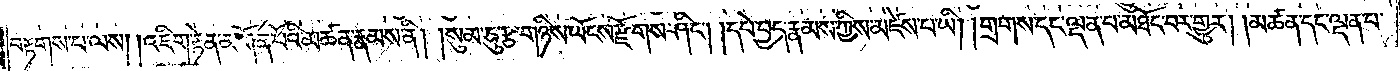བརྟགས་པ་ལས། །འཇིག་རྟེན་མགོན་པོའི་མཚན་རྣམས་ནི། །སུམ་ཅུ་རྩ་གཉིས་ཡོངས་རྫོགས་ཤིང༌། །དཔེ་བྱད་རྣམས་ཀྱིས་མཛེས་པ་ཡི། །གྲགས་དང་ལྡན་པ་མཐོང་བར་གྱུར། །མཚན་དང་ལྡན་པ་
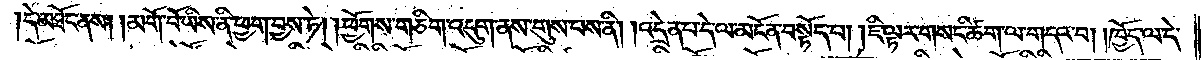།དེ་མཐོང་ནས། །མགོ་བོ་ཡིས་ནི་ཕྱག་བྱས་ཏེ། །ཕྱོགས་གཅིག་འདུག་ནས་གུས་པས་ནི། །འདྲེན་པ་དེ་ལ་མངོན་བསྟོད་པ། །ཇི་ལྟར་གསང་ཚིག་ལ་གདའ་བ། །ཁྱོད་ལ་དེ་
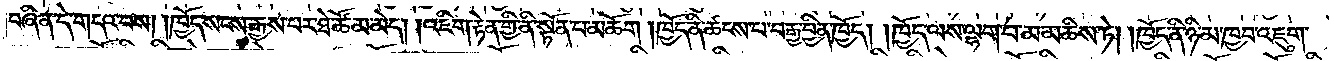བཞིན་དེ་གདའ་བས། །ཁྱོད་སངས་རྒྱས་པར་ཐེ་ཚོམ་མེད། །འཇིག་རྟེན་གྱི་ནི་སྟོན་པ་མཆོག །ཁྱོད་ནི་ཚངས་པ་བརྒྱ་བྱིན་ཁྱོད། །ཁྱོད་ལས་ལྷག་པ་མ་མཆིས་ཏེ། །ཁྱོད་ནི་ཉི་མ་ཁྱབ་འཇུག་
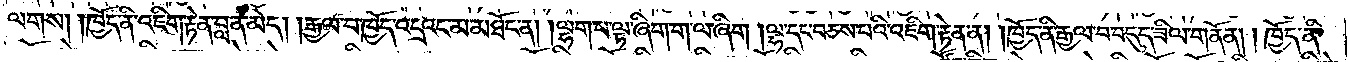ལགས། །ཁྱོད་ནི་འཇིག་རྟེན་བླ་ན་མེད། །རྒྱལ་བ་ཁྱོད་འདྲའང་མ་མཐོང་ན། །ལྷག་པ་ལྟ་ཞིག་ག་ལ་ཞིག །ལྷ་དང་བཅས་པའི་འཇིག་རྟེན་ན། །ཁྱོད་ནི་རྒྱལ་བ་བདུད་ཟིལ་གནོན། །ཁྱོད་ནི་
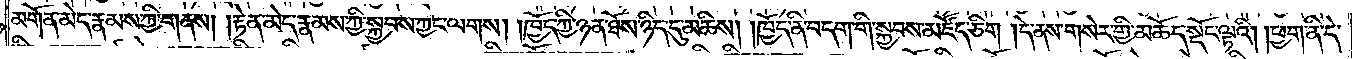མགོན་མེད་རྣམས་ཀྱི་གནས། །རྟེན་མེད་རྣམས་ཀྱི་སྐྱབས་ཀྱང་ལགས། །ཁྱོད་ཀྱི་ཉན་ཐོས་ཉིད་དུ་མཆིས། །ཁྱོད་ནི་བདག་གི་སྐྱབས་མཛོད་ཅིག །དེ་ནས་གསེར་གྱི་མཆོད་སྡོང་ལྟའི། །ཕྱག་ནི་དེ་
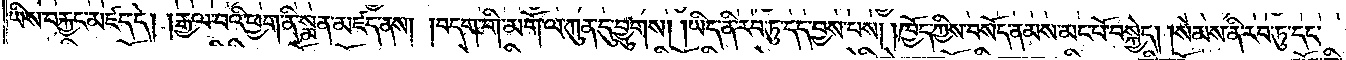ཡིས་བརྐྱང་མཛད་དེ། །རྒྱལ་བའི་ཕྱག་ནི་སྨན་མཛད་ནས། །བདག་གི་མགོ་ལ་ཀུན་དུ་བྱུགས། །ཡིད་ནི་རབ་ཏུ་དད་བྱས་པས། །ཁྱོད་ཀྱིས་བསོད་ནམས་མང་པོ་བསྐྱེད། །སེམས་ནི་རབ་ཏུ་དང་
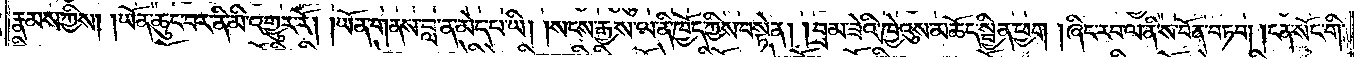རྣམས་ཀྱིས། །ཡོན་ཆུང་བར་ནི་མི་འགྱུར་རོ། །ཡོན་གནས་བླ་ན་མེད་པ་ཡི། །སངས་རྒྱས་ལ་ནི་ཁྱོད་ཀྱིས་བསྟེན། །བྲམ་ཟེའི་ཁྱེའུས་མཆོད་སྦྱིན་ཕྱག །ཞིང་རབ་ལ་ནི་ས་བོན་བཏབ། །ངན་སོང་གི་
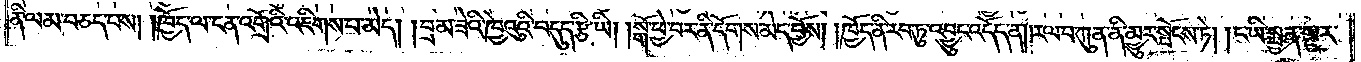ནི་ལམ་བཅད་པས། །ཁྱོད་ལ་ངན་འགྲོའི་འཇིགས་པ་མེད། །བྲམ་ཟེའི་ཁྱེའུའི་བདུད་རྩི་ཡི། །སྒོ་ཕྱེ་བར་ནི་དོགས་མེད་བྱོས། །ཁྱོད་ནི་རབ་ཏུ་འབྱུང་འདོད་ན། །རལ་པ་ཀུན་ནི་མྱུར་སྤོངས་ཏེ། །ང་ཡི་སྤྱན་སྔར་
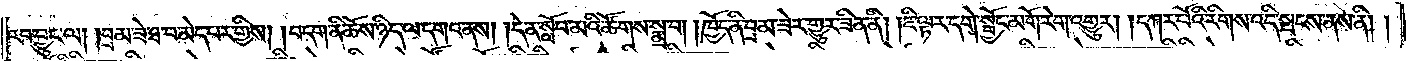རབ་བྱུང་ལ། །བྲམ་ཟེ་ཐ་བ་མེད་པར་གྱིས། །བདག་ནི་ཆོས་ཉིད་ལ་དགའ་ནས། །དེ་ན་སློབ་མའི་ཚོགས་སྨྲ་བ། །ཁྱོད་ནི་བྲམ་ཟེར་གྱུར་ཟིན་ནི། །ཇི་ལྟར་དགེ་སྦྱོང་མགོ་རེག་འགྱུར། །དཀར་པོའི་རིགས་འདི་སྤངས་ནས་ནི། །
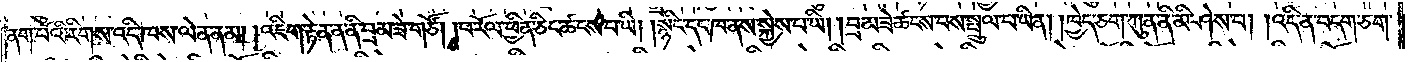ནག་པའི་རིགས་འདི་ཁས་ལེན་ནམ། །འཇིག་རྟེན་ན་ནི་བྲམ་ཟེ་གཙོ། །ཕ་རོལ་ཕྱིན་ཅིང་ཚངས་པ་ཡི། །སྙིང་དང་ཁ་ནས་སྐྱེས་པ་ཡི། །བྲམ་ཟེ་ཚངས་པས་སྤྲུལ་པ་ཡིན། །ཁྱེད་ཅག་ཀུན་ནི་མི་ཤེས་པ། །འདི་ན་བདག་ཅག་
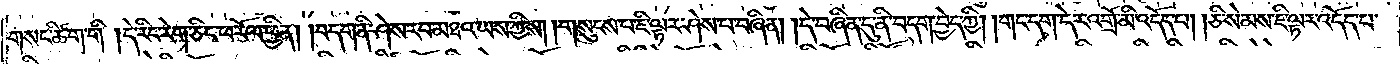གསང་ཚིག་གི །དེ་རིང་རེག་ཅིང་ཕ་རོལ་ཕྱིན། །བདག་ནི་ཤེས་རབ་མཐའ་ཡས་ཀྱིས། །གསུངས་པ་ཇི་ལྟར་ཤེས་པ་བཞིན། །དེ་བཞིན་དུ་ནི་བདག་བྱེད་ཀྱི། །གང་དག་དེར་འགྲོ་མི་འདོད་པ། །ཅི་སེམས་ཇི་ལྟར་འདོད་པ་
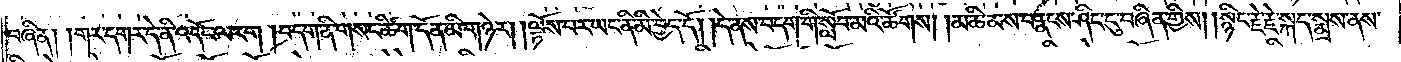བཞིན། །གར་དགར་དེ་ནི་འདོང་ལ་རག །བདག་ནི་གསང་ཚིག་དོན་མི་གཉེར། །ལྟོས་པར་ཡང་ནི་མི་བྱེད་དོ། །དེ་ནས་བདག་གི་སློབ་མའི་ཚོགས། །མཆི་མས་བརྣངས་ཤིང་ངུ་བཞིན་གྱིས། །སྙིང་རྗེ་རྗེ་སྐད་སྨྲས་ནས་
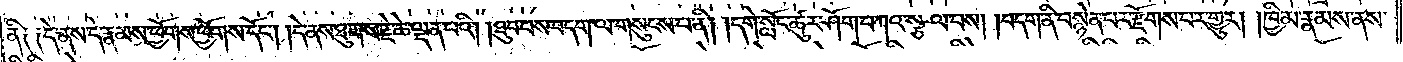ནི༑ ༑དེ་ནས་དེ་རྣམས་ཕྱོགས་ཕྱོགས་དོང༌། །དེ་ནས་ཐུགས་རྗེ་ཆེ་ལྡན་པའི། །ཐུབ་པས་བདག་ལ་གསུངས་པ་ནི། །དགེ་སློང་ཚུར་ཤོག་བཀའ་སྩལ་པས། །བདག་ནི་བསྙེན་པར་རྫོགས་པར་གྱུར། །ཁྱིམ་རྣམས་ནས་
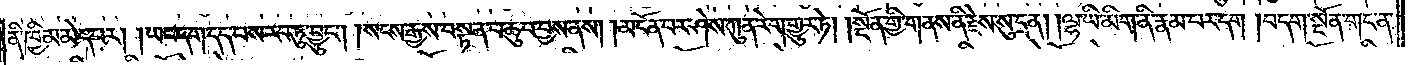ནི་ཁྱིམ་མེད་པར། །ཡང་དག་དད་པས་རབ་ཏུ་བྱུང༌། །སངས་རྒྱས་བསྟན་པ་ཆུབ་བྱས་ནས། །མངོན་པར་ཤེས་ཀུན་རེག་གྱུར་ཏེ། །སྔོན་གྱི་གནས་ནི་རྗེས་སུ་དྲན། །ལྷ་ཡི་མིག་ནི་རྣམ་པར་དག །བདག་སྔོན་གང་ན་
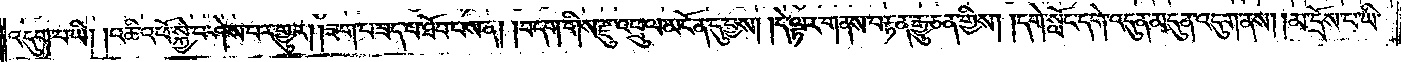འདུག་པ་ཡི། །འཆི་འཕོ་སྐྱེ་བ་ཤེས་པར་གྱུར། །ཟག་པ་ཟད་པ་ཐོབ་པས་ན། །བདག་གིས་རྫུ་འཕྲུལ་མངོན་དུ་བྱས། །དེ་ལྟར་གནས་བརྟན་རྒྱུ་ཅན་གྱིས། །དགེ་སློང་དགེ་འདུན་མདུན་འདུག་ནས། །མ་དྲོས་པ་ཡི་
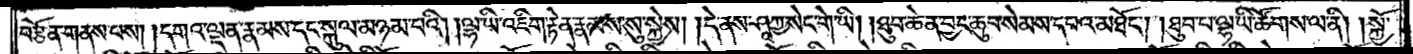བརྩོན་གནས་པས། །དགའ་ལྡན་རྣམས་དང་སྐུལ་མཉམ་པའི། །ལྷ་ཡི་འཇིག་རྟེན་རྣམས་སུ་སྐྱེས། །དེ་ནས་ཤཱཀྱ་སེང་གེ་ཡི། །ཐུབ་ཆེན་བྱང་ཆུབ་སེམས་དཔའ་མཐོང༌། །ཐུབ་པ་ལྷ་ཡི་ཚོགས་ལ་ནི། །སྐྱོ་
